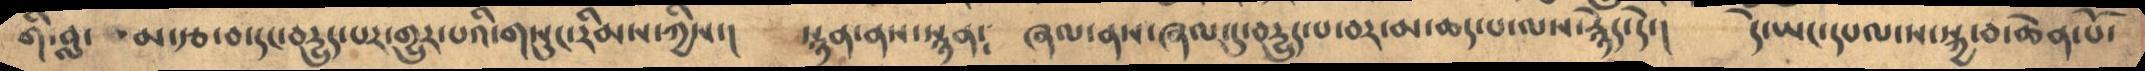གི་བླ་མ་རྩ་བ་དང་བདྱུད་པར་གྱུར་པའི་གསུང་རིམས་ཀྱིས་།     སྙན་ནས་སྙན༴      ཞལ་ནས་ཞལ་དུ་བདྱུད་པ་བར་མ་ཆད་པ་ལས་རྙེད་དེ་།    དེ་ཡང་དཔལ་ས་སྐྱ་བ་ཆེན་པོ་
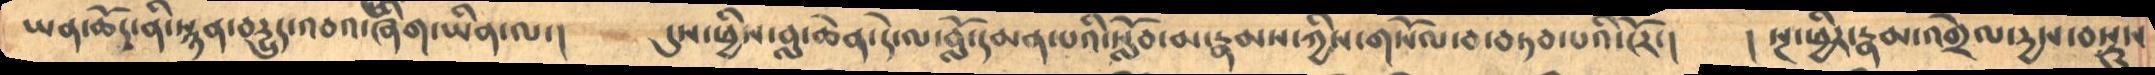ཡན་ཆོད་ནི་སྙན་བདྱུད་འབའ་ཞིག་ཡིན་ལ་།      དུས་ཕྱིས་བླ་ཆེན་རེ་ལ་བློ་དམན་པའི་སློབ་མ་རྣམས་ཀྱིས་གསོལ་བ་བཏབ་པའི་ངོར་།   །  སྔ་ཕྱིར་རྣམ་འགྲེལ་དྱས་བསྡུས
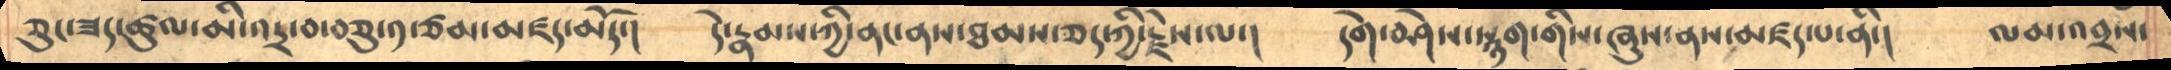ཅུང་ཟད་ཚུལ་མི་འདྲ་བ་བཅུ་༡་ཙམ་མཛད་མོད་།     དེ་རྣམས་ཀྱི་ནང་ནས་ཐམས་ཅད་ཀྱི་རྗེས་ལ་།      དགེ་བཤེས་སྙག་གིས་ཞུས་ནས་མཛད་པ་ནི་།    ལམ་འབྲས་
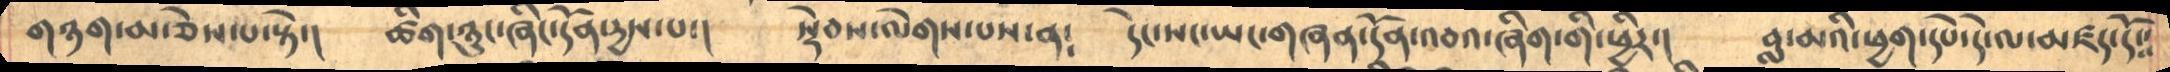གཉག་མ་ཅེས་པ་སྟེ་།      ཚིག་ཉུང་ཞིང་དོན་དྱས་པ་།      སྡེབས་ལེགས་པས་ན༴      དེང་སང་ཡང་གཞན་དོན་འབའ་ཞིག་གི་ཕྱིར་།    བླ་མའི་ཕྱག་དཔེ་དེ་ལ་མཛད་དོ༴༴
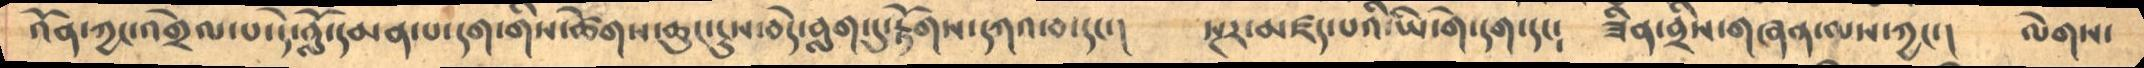འོན་ཀྱང་འགྲེལ་པ་དེ་བློ་དམན་པ་དག་གིས་ཚེགས་ཆུང་ངུས་བདེ་བླག་དུ་རྟོགས་དཀའ་བ་དང་།     སྔར་མཛད་པའི་ཡི་གེ་དག་དང༴    ཟིན་བྲིས་གཞན་ལས་ཀྱང་།    ལེགས་
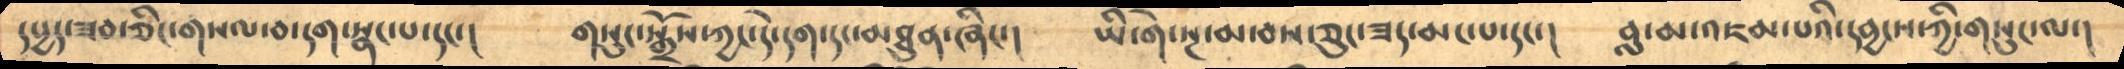དཔྱད་ཟབ་ཅིང་གསལ་བ་དག་སྣང་པ་དང་།     གསུང་སྒྲོས་ཀྱང་དེ་དག་དང་མཐུན་ཞིང་།    ཡི་གེ་སྔ་མ་བས་ཅུང་ཟད་མང་པ་དང་།    བླ་མ་འཇམ་པའི་དབྱངས་ཀྱི་གསུང་ལ་།
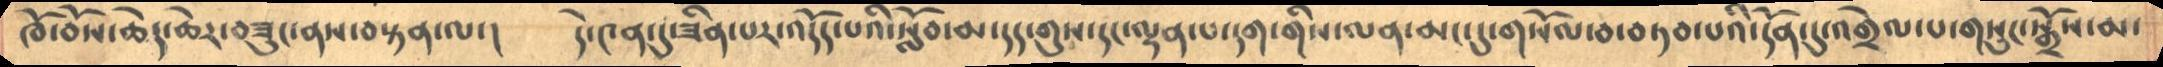ཁོ་བོས་ཆེད་ཆེར་བཟུང་ནས་བསྟན་ལ་།     དེ་༤ན་དུ་ཟིན་པར་འདོད་པའི་སློབ་མ་དད་གུས་དང་ལྡན་པ་དག་གིས་ལན་མང་དུ་གསོལ་བ་བཏབ་པའི་དོན་དུ་འགྲེལ་པ་གསུང་སྒྲོས་མ་
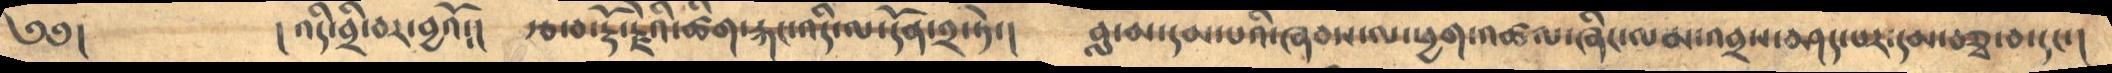༄༅།         །  འདི་བྲི་བར་བྱའོ།།     རྩ་བ་རྡོ་རྗེའི་ཚིག་རྐང་འདི་ལ་དོན་༢་ཏེ་།      བླ་མ་དམ་པའི་ཞབས་ལ་ཕྱག་འཚལ་ཞིང་ལམ་འབྲས་བཤད་པར་དམ་བཅྭ་བ་དང་།
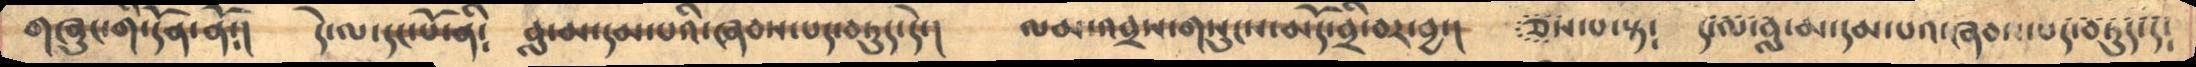གཞུང་གི་དོན་ནོ༴།     དེ་ལ་དང་པོ་ནི༴     བླ་མ་དམ་པའི་ཞབས་པད་བཏུད་དེ་།     ལམ་འབྲས་གསུངས་མདོ་བྲི་བར་བྱ་།    ཅེས་པ་སྟ༴    ད་ལ་བླ་མ་དམ་པའི་ཞབས་པད་བཏུད་ད༴
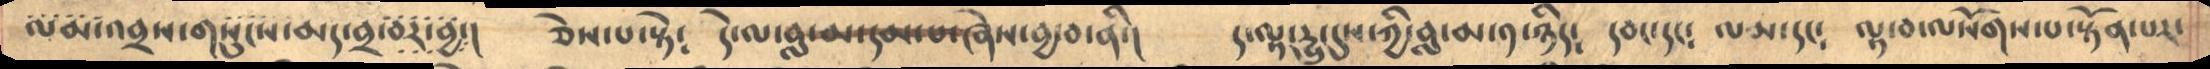ལམ་འབྲས་གསུངས་མར་བྲ་བར་བྱ་།      ཅེས་པ་སྟེ་     དེ་ལ་བླ་མ་དམ་པ་ཞེས་བྱ་བ་ནི་།    ད་ལྟ་དྱུ་དུས་ཀྱི་བླ་མ་༡་ཉིད༴   དབང་དང༴   ལམ་དང༴    ལྟ་བ་ལསོགས་པ་སྟོན་པར་
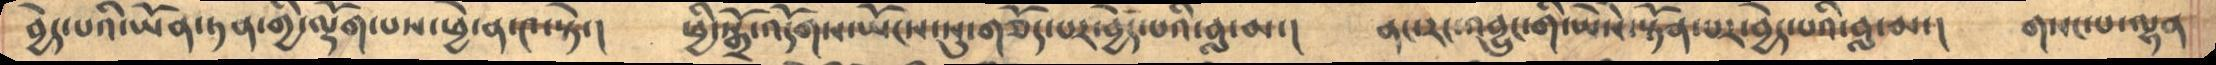བྱེད་པའི་ཡོན་ཏན་གྱི་ལྡོག་པས་ཕྱེ་ན་༤་སྟེ་།    ཕྱི་སྒྲོ་འདོགས་ཡོངས་སུ་གཅོད་པར་བྱེད་པའི་བླ་མ་།     ནང་རང་བྱུང་གི་ཡཻས་སྟོན་པར་བྱེད་པའི་བླ་མ་།    གསང་པ་ལྷན
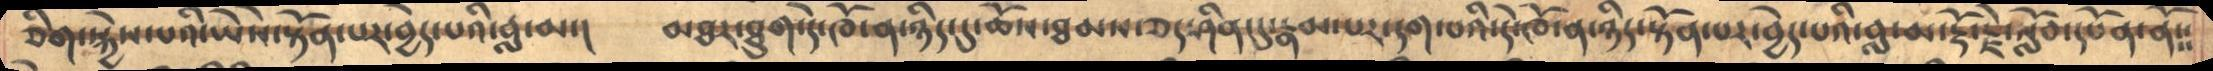ཅིག་སྐྱེས་པའི་ཡཻས་སྟོན་པར་བྱེད་པའི་བླ་མ་།     མཐར་ཐུག་དེ་ཁོ་ན་ཉིད་དུ་ཆོས་ཐམས་ཅད་ཤིན་དུ་རྣམ་པར་དག་པའི་དེ་ཁོ་ན་ཉིད་སྟོན་པར་བྱེད་པའི་བླ་མ་རྡོ་རྗེ་སློབ་དཔོན་ནོ༴༴
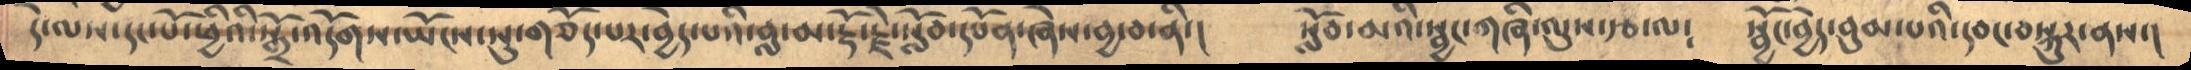དེ་ལས་དང་པོ་ཕྱིའི་སྒྲོ་འདོགས་ཡོངས་སུ་གཅོད་པར་བྱེད་པའི་བླ་མ་རྡོ་རྗེ་སློབ་དཔོན་ཞེས་བྱ་བ་ནི་།    སློབ་མའི་སྦྱང་གཞི་ལུས་རྩ་ལ༴    སྦྱོང་བྱེད་བུམ་པའི་དབང་བསྐུར་ནས་།
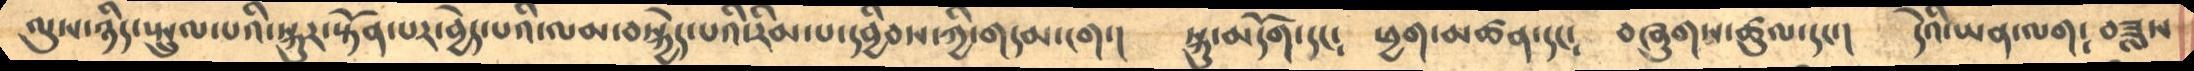ལུས་ཉིད་སྤྲུལ་པའི་སྐུར་སྟོན་པར་བྱེད་པའི་ལམ་བསྐྱེད་པའི་རིམ་པ་དབྱིབས་ཀྱི་གདམ་ངག་།      སྐུ་མདོག་དང༴     ཕྱག་མཚན་དང༴     བཞུགས་ཚུལ་དང་།    དེའི་ཡན་ལག༴་བཟླས
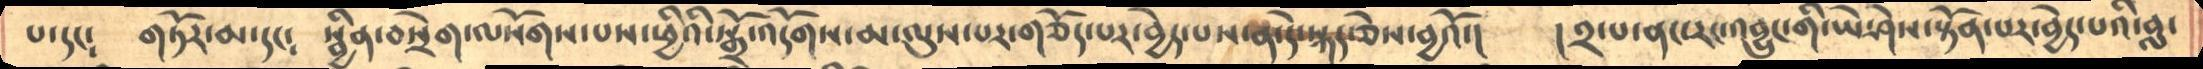པ་དང༴    གཏོར་མ་དང༴      སྦྱིན་བསྲེག་ལསོགས་པས་ཕྱིའི་སྒྲོ་འདོགས་མ་ལུས་པར་གཅོད་པར་བྱེད་པས་ན་དེ་སྐད་ཅེས་བྱའོ་།     ། ༢་པ་ནང་རང་བྱུང་གི་ཡེ་ཤེས་སྟོན་པར་བྱེད་པའི་བླ་
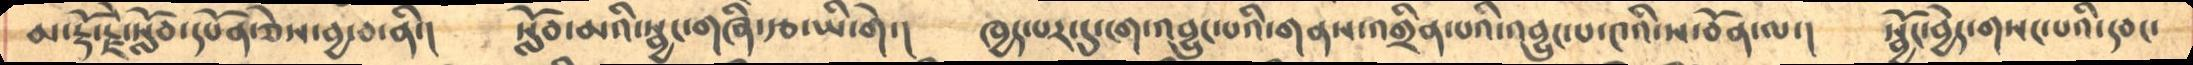མ་རྡོ་རྗེ་སློབ་དཔོན་ཅེས་བྱ་བ་ནི་།      སློབ་མའི་སྦྱང་གཞི་རྩ་ཡི་གེ་།      ཁྱད་པར་དུ་ངག་འབྱུང་པའི་གནས་འགྲིན་པའི་འབྱུང་པ་༤འི་ས་བོན་ལ་།     སྦྱོང་བྱེད་གསང་པའི་དབང་
